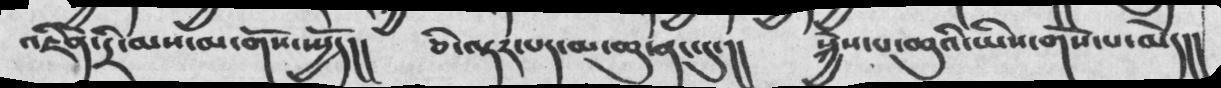འཇིནེ་དྲི་མས་མ་གོས་སྤྱོད།།   ཅི་ལྟར་པར་མ་ཆུ་ནང་དུ་།།   སྐྱེས་པ་ཆུའི་ཡིས་གོས་མ་མེད།།
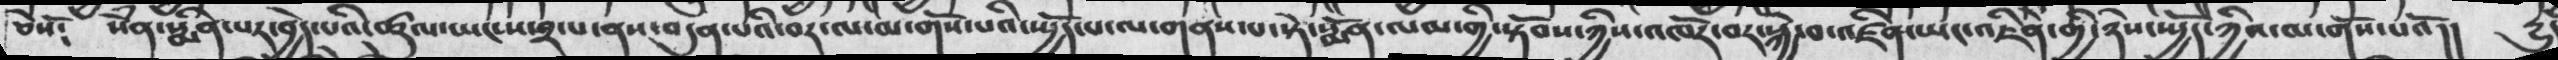ཅེསོ༴   སེཾན་སྨིན་པར་བྱེད་པའི་ཚུལ་ཡང་ས་༢་པ་ནས་བདུན་པའི་བར་ལ་མ་གོས་པའི་སྤྱོད་པ་ལ་གནས་པ་སྟེ་སྨོན་ལམ་གྱི་སྟོབས་ཀྱིས་འཁོར་བར་སྐྱེ་བ་འཛིན་ཡང་འཇིེན་གྱི་ཉེས་སྤྱོད་ཀྱིས་མ་གོས་པའོ།། དྱུ་
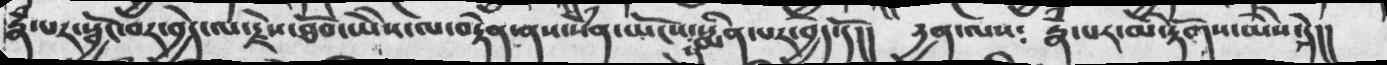རྣཾ་པར་སྦྱོང་བར་བྱེད་ལ་རྗེས་ཐོབ་ཡེེས་ལ་བརྟེན་ནས་སེཾན་ཡོངས་སུ་སྨིན་པར་བྱེད་དོ།།  དྱན་ལས༴  རྣཾ་པར་མི་རྟོགས་ཡེེས་དེ།།
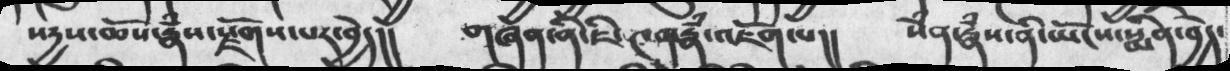སདྱས་ཆོས་རྣཾས་སྫོགས་པར་བྱེད།།  གཞན་ནི་ཇི་༤ན་རྣཾ་འཇོག་པ།།  སེཾན་རྣཾས་ནི་ཡོངས་སྨིན་བྱེད་
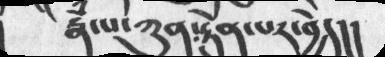རྣཾ་པ་ཀུན་རྟེན་པར་བྱེད།།
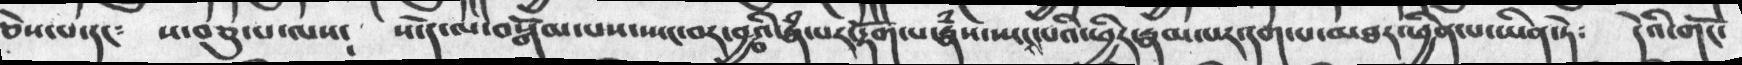ཅེས་པ་དང༴  ས་བཅུ་པ་ལས༴ ས་དེ་ལ་བསྒོམ་པས་སྤང་བར་བྱ་བའི་རྣཾ་པར་རྟོག་པ་རྣཾས་སྤངས་པའི་ཕྱིར་རྣམ་པར་དག་པ་མཐར་ཕྱིན་པ་ཡིན་ཏེ༴  དེའི་གོང་
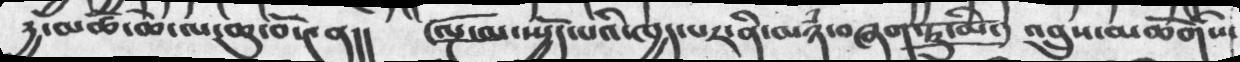དྱ་མཚོ་ཆེ་ལ་ཆུ་བོ་༤ན།།  ལྔ་མ་སྤྱོད་པའི་ཁྱད་པར་ནི་མཉཾ་བཞག་ཏུ་མི་  འབྲུས་མཆོགསི་
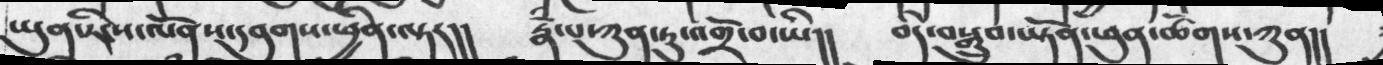ཡུན་རིངས་ལོནས་དབུགས་ཕྱིན་ལྟར།།   རྣོཾ་པ་ཀུན་ཏུ་འགྲོ་བ་ཡི།།   བདེ་བསྒྲུབ་ཡྟོན་ཕུན་ཚོགས་ཀུན།།
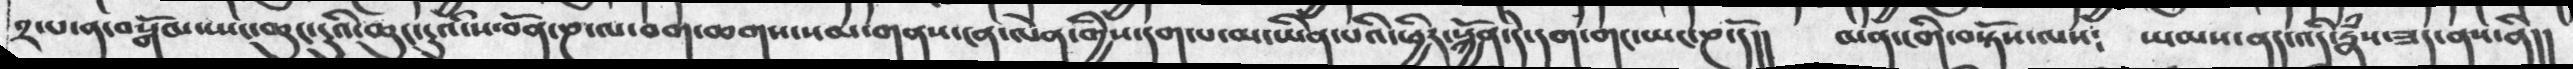༢་པ་ན་བསྒོམ་ཡང་ཆུང་ངུའི་ཆུང་ངུའི་ས་བོན་ཎ་ལ་བག་ཆགས་སམ་མ་གནས་ངན་ལེན་གྱིས་དག་པ་མ་ཡིན་པའི་ཕྱིར་སྐྱོན་དེ་དག་གང་ཡང་ཎ་དོ།།   མན་ངགི་བསྟོས་ལས༴    ཡམས་ནད་འདི་རྣཾས་ཟད་ནས་ནི།།
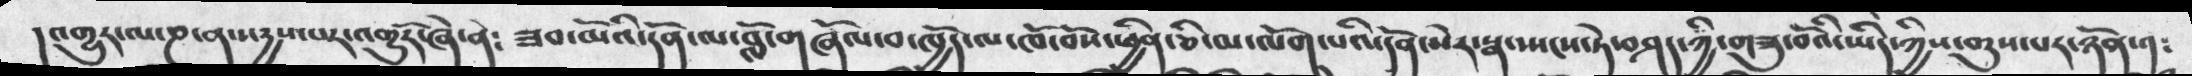། འགྱུར་ལ་ཎ་ན་སདྱས་པར་འགྱུརོ་ཞེ་ན༴   ཟབ་མོའི་དོན་ལ་བློ་གཞོལ་བ་ཁྱོད་ལ་ཁོ་བོས་ཕྱིན་ཅི་མ་ལོག་པའི་དོན་སེར་སྣ་ཡངས་ཏེ་བཤད་ཀྱི་གཟུ་བོའི་ཡིད་ཀྱིས་གུས་པར་ཉོན་༡༴
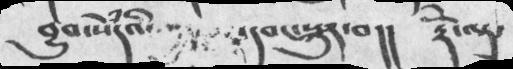བྱུབ་སེཾདའི་     དབང་སྐུར་བ།།  རྡོེ་ལྟ་
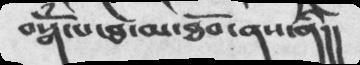བསྒོཾ་པ་ཐ་མ་ཐོབ་ནས་ནི།།
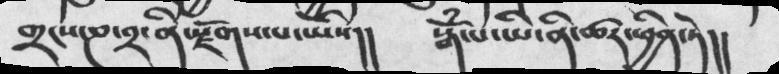གྲངས་ཎ་༢་ནི་སྫོགས་པ་ཡིས།།  སྒོཾ་པ་ཡི་ན་ི་ཚད་ཕྱིན་ཏེ།།
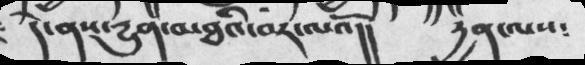དེ་ནས་དྱུན་མཐའི་བར་ལའོ།།   དྱན་ལས༴
